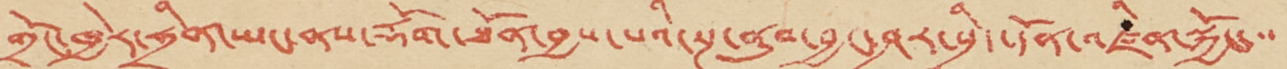གྲོང་ཁྱེར་ཧྲིན་ཡང་ནས་རྡོག་ཐོན་བྱས་པའི་སྔ་ནུབ་བྱང་ཤར་སྲིད་དོན་འཛིན་སྐྱོང་་་
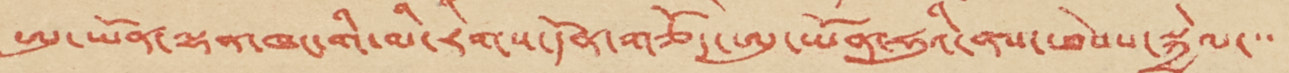ཨུ་ཡོན་ལྷན་ཁང་གི་མི་རིགས་དོན་གཅོད་ཨུ་ཡོན་ཧུའི་ནས་ཕེབས་སྐྱེལ་་་
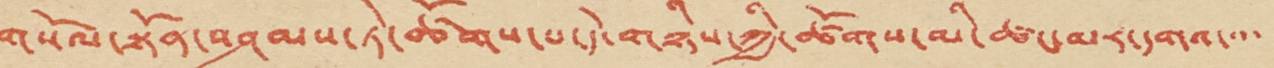གསོལ་སྟོན་བཤམས་ཏེ་ཚོགས་པ་དེ་གཉིས་ཀྱི་ཚོགས་མི་ཚང་མར་དགའ་་་་
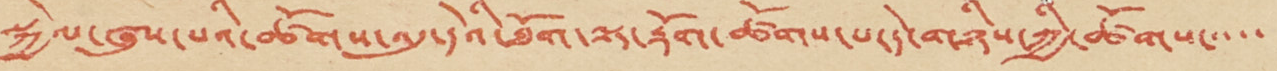སྐྱེལ་ཞུས་པའི་ཚོགས་འདུ་དེའི་ཐོག་ལྟ་རྟོག་ཚོགས་པ་དེ་གཉིས་ཀྱི་ཚོགས་་་་་
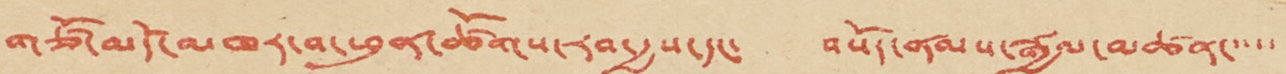གཙོ་མདོ་མཁར་བ་ཕུན་ཚོགས་རབ་རྒྱས་དང་ བསོད་ནམས་རྒྱལ་མཚན་་་་་
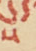ས
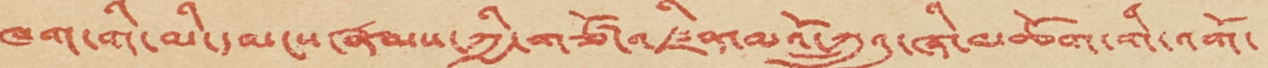ཁག་གི་མི་དམངས་རྣམས་ཀྱི་གཙོ་འཛིན་མའོ་ཀྲུའུ་ཞི་མཆོག་གི་འགོ་
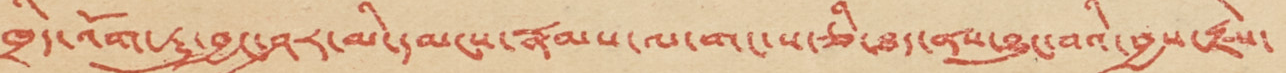ཁྲིད་འོག་ཏུ་བྱང་ཤར་མི་དམངས་རྣམས་ལ་གང་ས་ཅི་ཐད་ནས་བྱུང་བའི་བྱས་རྗེས་
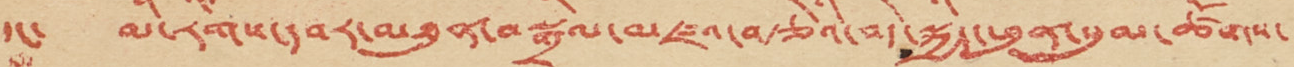དང་ མི་རིགས་དབར་མཐུན་སྒྲིལ་མཛའ་བརྩེའི་བདེ་སྐྱིད་ཕུན་སུམ་ཚོགས་
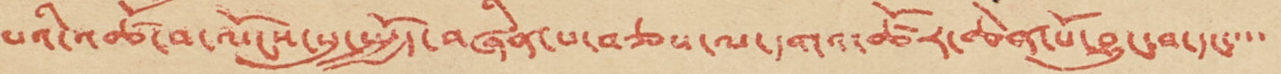པའི་འཚོ་བ་ལོངས་སུ་སྤྱོད་བཞིན་པ་བཅས་ལ་དགའ་ཚོར་ཆེན་པོ་བྱུང་བ་དང་་་་
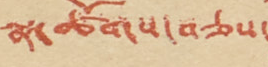སྣ་ཚོགས་བཅས་
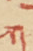ཀ
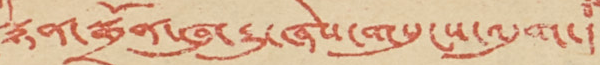སྙན་སྒྲོན་ཞུ་རྒྱུ་ཞེས་གསུངས་འདུག་།
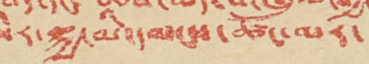སེར་སྐྱ་མི་དམངས་ཚང་མར་
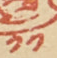༡༡
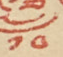༡༠
